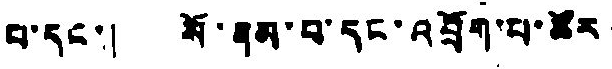པ་དང་། སོ་ནམ་པ་དང་འབྲོག་པ་ཚོར
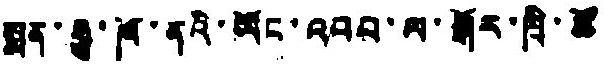སྨན་རྒྱུ་ཁོ་ནའི་ཡོང་འབབ་ལ་སྒོར་ཁྲི་ཚོ
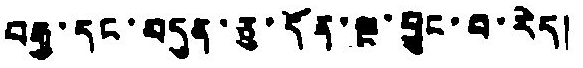བརྒྱ་དང་བདུན་ཅུ་དོན་ལྔ་བྱུང་བ་རེད།
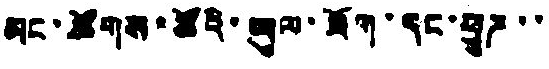མང་ཚོགས་ཚོའི་ཡུལ་ཟོག་དང་ཕྱུཌ་་
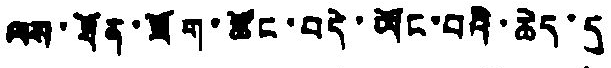ལས་ཐོན་ཟོག་ཚོང་བདེ་ཡོང་བའི་ཆེད་དུ
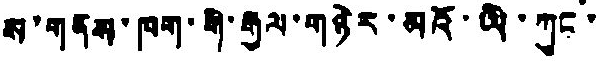ས་གནས་ཁག་གི་རྒྱལ་གཉེར་མའོ་ཡི་ཀུང་
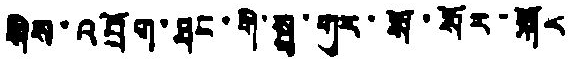གིས་འབྲོག་ཐང་གི་སྦྲ་གུར་སོ་སོར་སྐོར
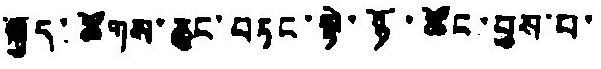སྐྱོད་ཚོགས་ཆུང་བཏང་སྟེ་ཉོ་ཚོང་བྱས་པ་
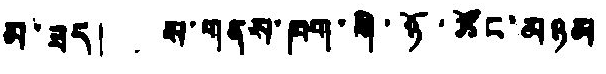མ་ཟད། ས་གནས་ཁག་གི་ཉོ་ཚོང་མཉམ
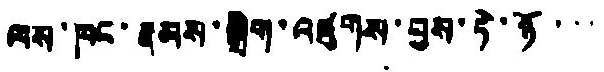ལས་ཁང་རྣམས་སྒྲིག་འཛུགས་བྱས་ཏེ་ཉོ་་་
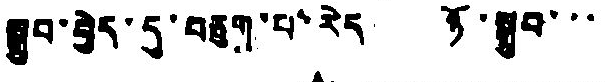སྒྲུབ་བྱེད་དུ་བཅུག་པ་རེད། ཉོ་སྒྲུབ་་་
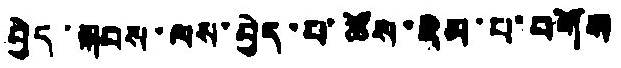བྱེད་སྐབས་ལས་བྱེད་པ་ཚོས་རིམ་པ་བགོས
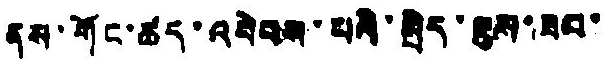ནས་གོང་ཚད་འབེབས་པའི་སྤེད་ཇུས་ཟབ་
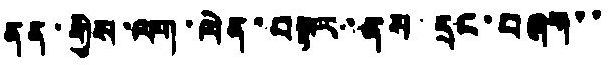ནན་གྱིས་ལག་ལེན་བསྟར་ནས་དྲང་བཞག་་
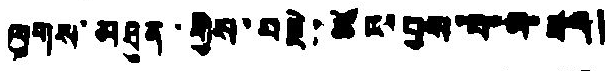ལུགས་མཐུན་གྱིས་བརྗེ་ཚོང་བྱས་པ་མ་ཟད།
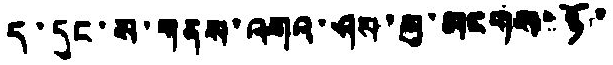ད་དུང་ས་གནས་འགའ་ཤས་སུ་མངགས་ཉོ་
